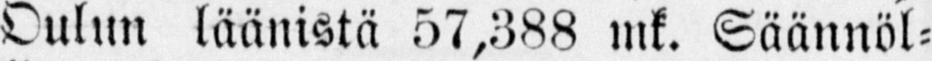Oulun läänistä 57,388 mk. Säännöl-
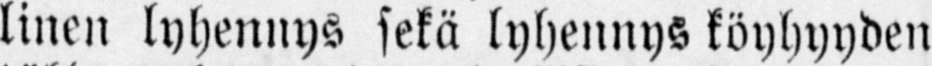linen lyhennys sekä lyhennys köyhyyden
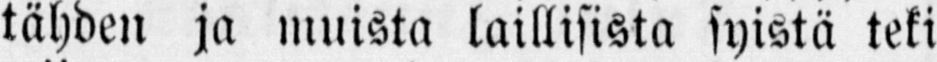tähden ja muista laillisista syistä teki
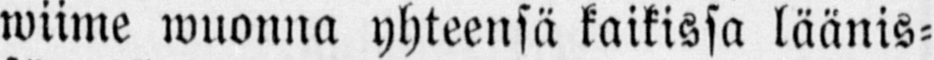wiime wuonna yhteensä kaikissa läänis-
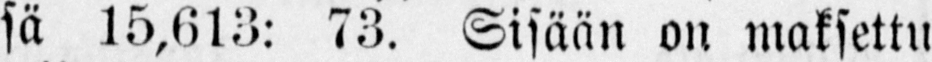sä 15,613: 73. Sisään on maksettu
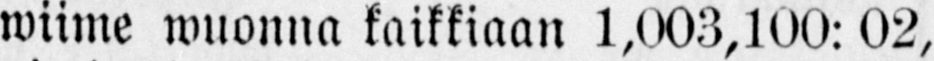wiime wuonna kaikkiaan 1,003,100: 02,
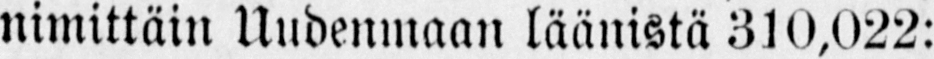nimittäin Uudenmaan läänistä 310,022:
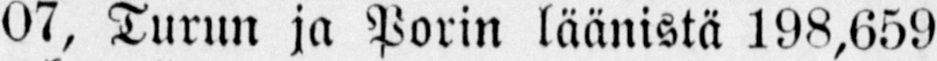07, Turun ja Porin läänistä 198,659
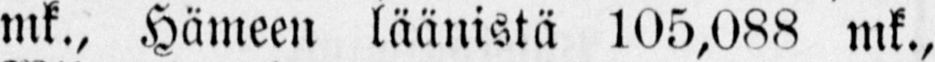mk., Hämeen läänistä 105,088 mk.,
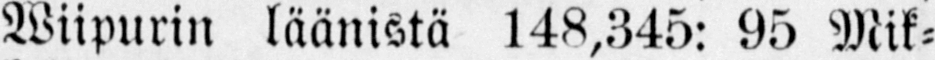Wiipurin läänistä 148,345: 95 Mik-
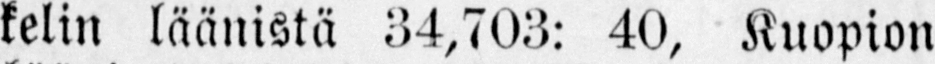kelin läänistä 34,703: 40, Kuopion
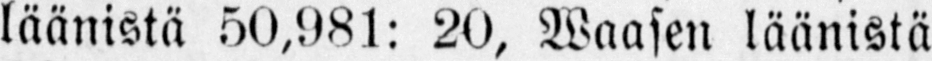läänistä 50,981: 20, Waasen läänistä
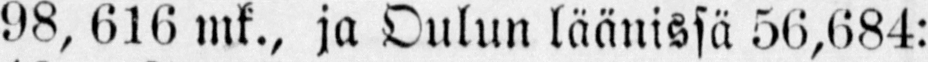98, 616 mk., ja Oulun läänissä 56,684:
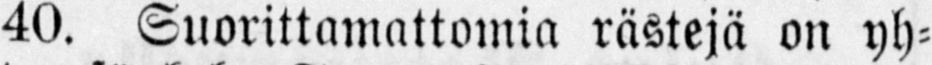40. Suorittamattomia rästejä on yh-
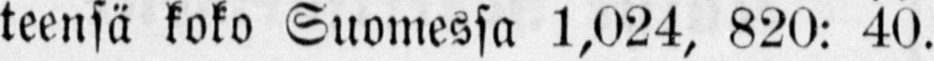teensä koko Suomessa 1,024, 820: 40.
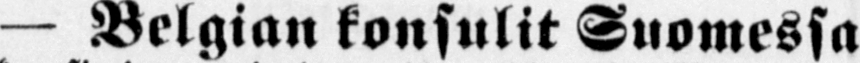— Belgian konsulit Suomessa
